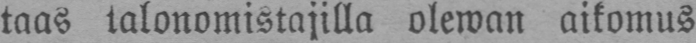taas talonomistajilla olewan aikomus
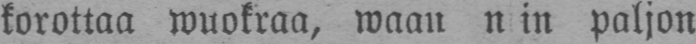korottaa wuokraa, waan niin paljon
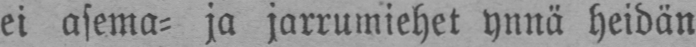ei asema- ja jarrumiehet ynnä heidän
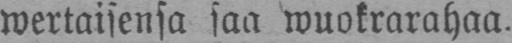wertaisensa saa wuokrarahaa.
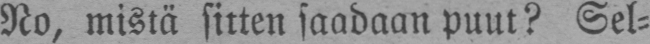No, mistä sitten saadaan puut? Sel-
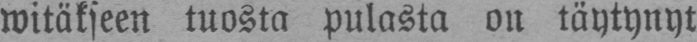witäkseen tuosta pulasta on täytynyt
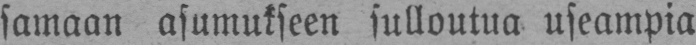samaan asumukseen sulloutua useampia
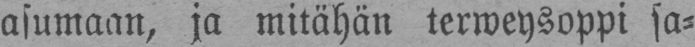asumaan, ja mitähän terweysoppi sa-
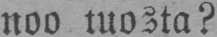noo tuosta?
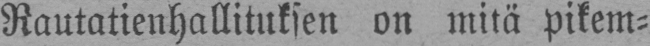Rautatienhallituksen on mitä pikem-
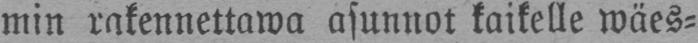min rakennettawa asunnot kaikelle wäes-
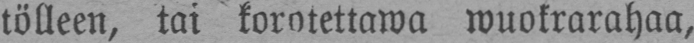tölleen, tai korotettawa wuokrarahaa,
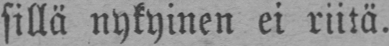sillä nykyinen ei riitä.
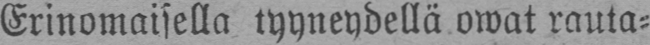Erinomaisella tyyneydellä owat rauta-
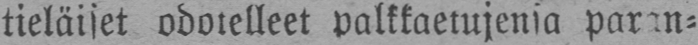tieläiset odotelleet palkkaetujensa paran-
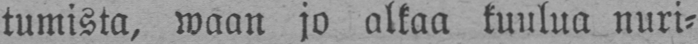tumista, waan jo alkaa kuulua nuri-
